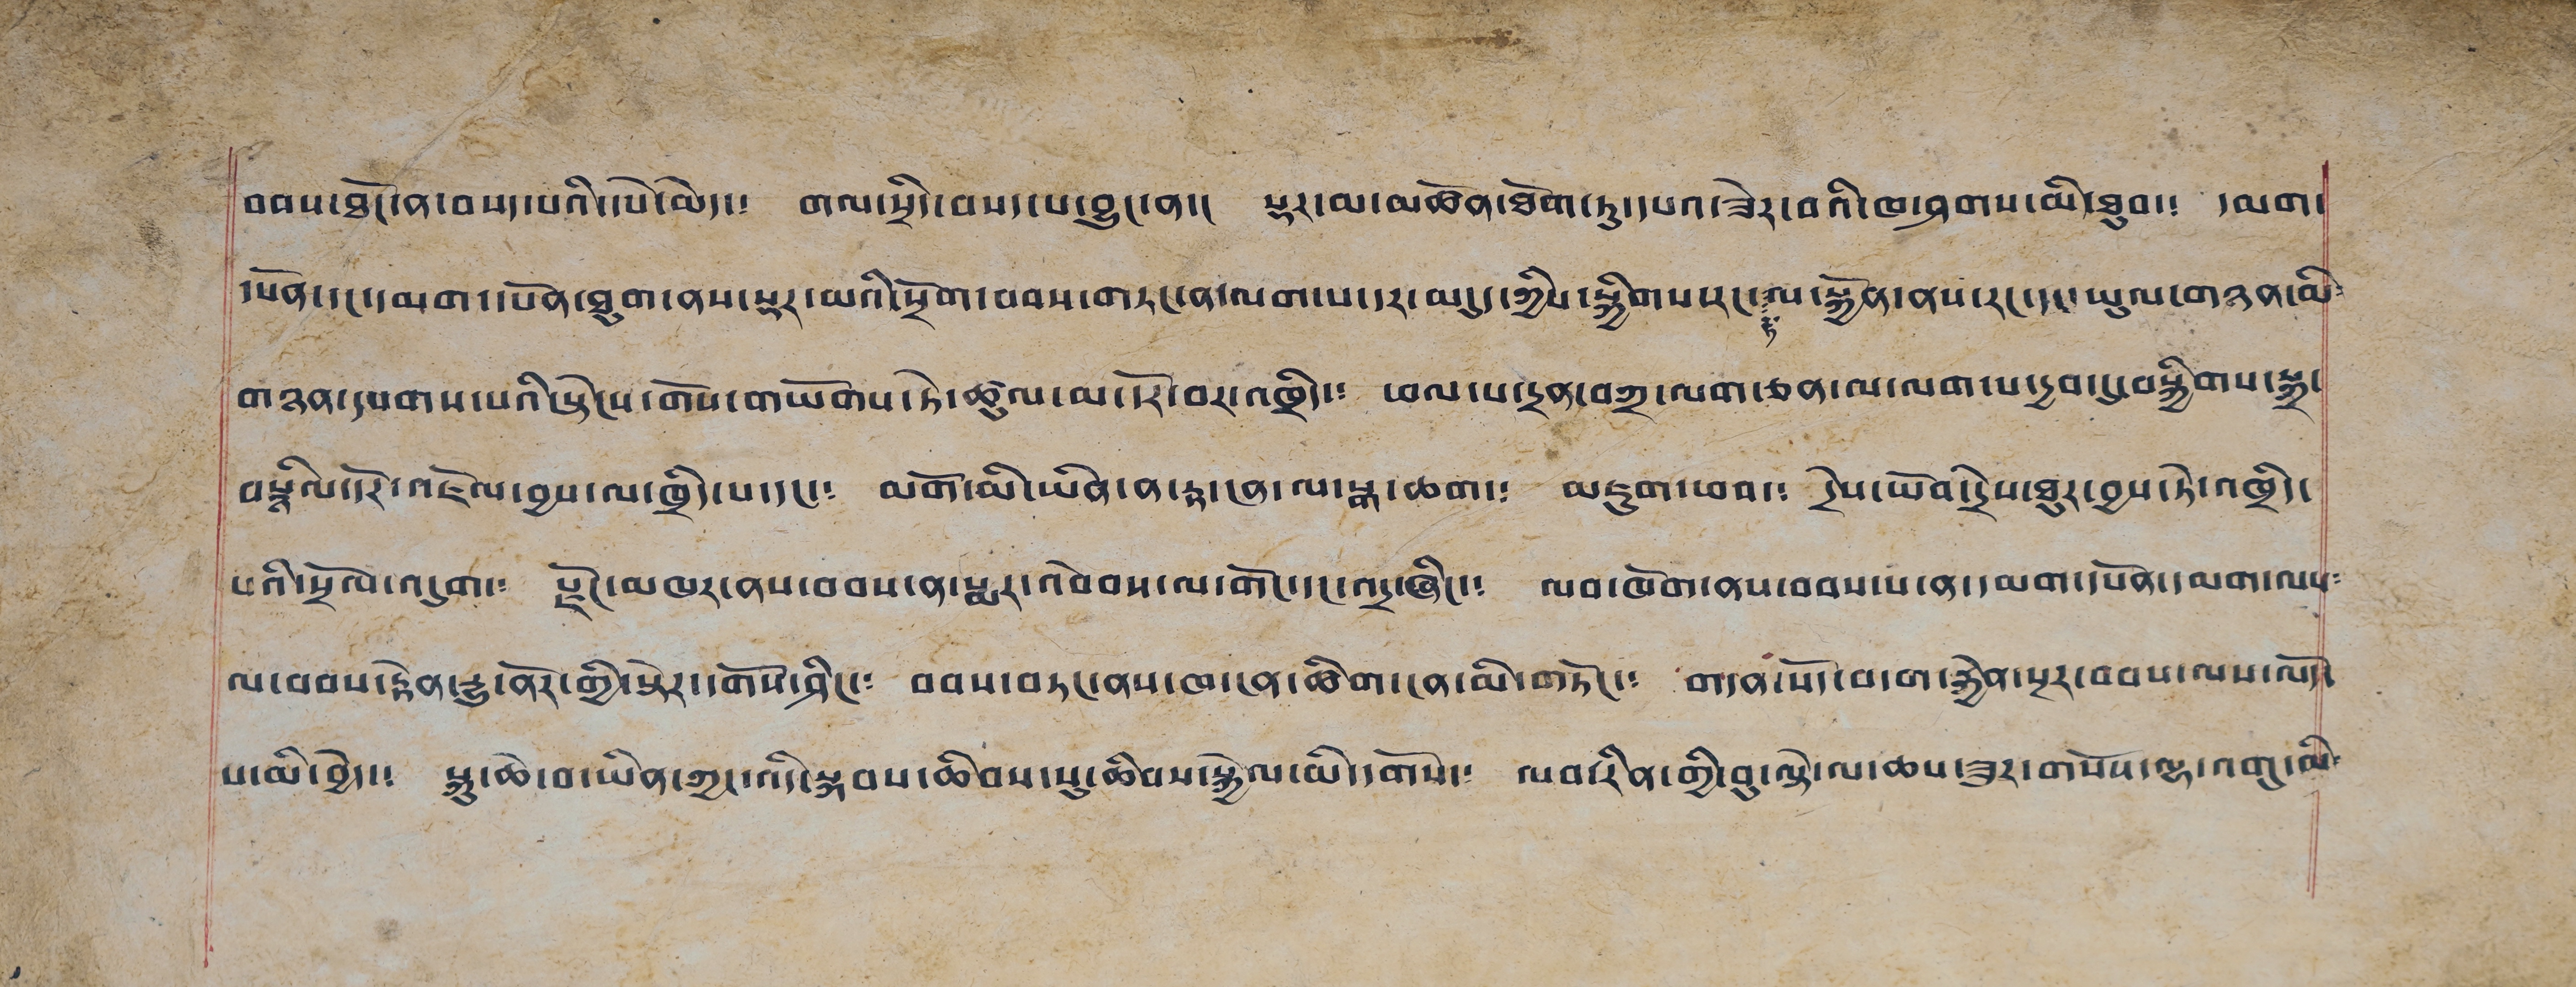བབས་ཐོང་ན་བསད་པའི་དཔེ་མེད་༴ གལ་སྲིད་བསད་པ་བྱུང་ན་༴ སྡར་མ་མཚོན་ཐོག་ཏུ་དཔའ་ཟེར་བའི་ཁ་ཤགས་མི་ཐུབ་༴ དམག་
དཔོན་དང་དམག་དཔོན་ཐུག་ནས་སྡར་མའི་སྲོག་བབས་གཏང་ན་ལག་པ་དར་མདུད་ཀྱིས་སྐྱིགས་རང་རྟ་ལ་སྐྱོན་ནས་རང་དང་ཡུལ་གཉན་མི༴
གཉན་དཔགས་པའི་སྟེངས་གོས་གཡོགས་ཏེ་ཚུལ་མ་དོར་བར་འཁྲིད་༴ ཕལ་པ་དྲན་བཀྲ་ལག་ཅན་ལ་ལག་པ་དྱབ་དུ་བསྐྱིགས་སྐྲ་
བསྙིལ་དོར་འཛོལ་བྱས་ལ་ཁྲིད་པ་དང་༴ མགོ་མི་ཡིན་ན་རྟ་ངན་ལ་སྒ་ཆག་༴ མཇུག་ཕབ་༴ དྲེས་ཡོབ་དྲིས་ཐུར་བྱས་ཏེ་འཁྲིད་
པའི་སྲོལ་འདུག་༴ རྫོང་མཁར་ནས་བབས་ན་སྨར་འབེབས་ལ་གོང་དང་འདྲ་ཞིང་༴ ལབ་ཁོག་ནས་བབས་པ་ན་དམག་དཔོན་དམག་ལས༴
ལ་བབས་རྟེན་རྒྱུ་ནོར་གྱི་སྟེར་དགོས་ཤིང་༴ བབས་བཏང་ནས་ཁ་ངན་ཚིག་ངན་མི་གཏོང་༴ གདན་སོད་བདག་རྐྱེན་སྔར་བབས་ལས་ལོད་
པ་མི་བྱེད་༴ སྐུ་ཆེ་བ་ཡིན་ཀྱང་འདི་སྐབས་ཆིབས་སུ་ཆིབས་སྐྱེལ་མི་དགོས་༴ ལབ་རིན་གྱི་བུ་ལྟེ་ལ་ཆས་ཟུར་གསོས་ལྷ་འགུ་མི༴
